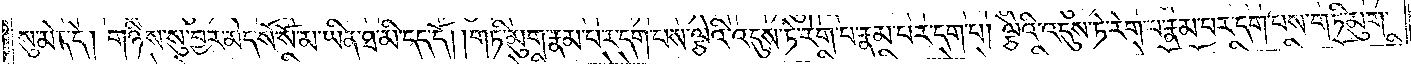སུ་མེད་དེ། གཉིས་སུ་བྱར་མེད་སོ་སོ་མ་ཡིན་ཐ་མི་དད་དོ། །གཏི་མུག་རྣམ་པར་དག་པས་ལྕེའི་འདུས་ཏེ་རེག་པ་རྣམ་པར་དག་པ། ལྕེའི་འདུས་ཏེ་རེག་པ་རྣམ་པར་དག་པས་གཏི་མུག་
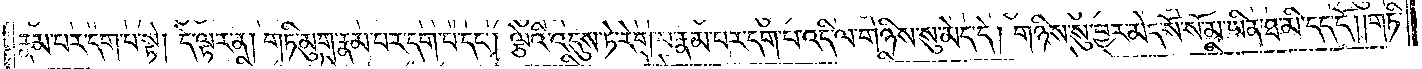རྣམ་པར་དག་པ་སྟེ། དེ་ལྟར་ན། གཏི་མུག་རྣམ་པར་དག་པ་དང༌། ལྕེའི་འདུས་ཏེ་རེག་པ་རྣམ་པར་དག་པ་འདི་ལ་གཉིས་སུ་མེད་དེ། གཉིས་སུ་བྱར་མེད་སོ་སོ་མ་ཡིན་ཐ་མི་དད་དོ། །གཏི་
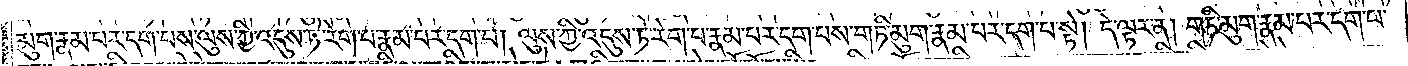མུག་རྣམ་པར་དག་པས་ལུས་ཀྱི་འདུས་ཏེ་རེག་པ་རྣམ་པར་དག་པ། ལུས་ཀྱི་འདུས་ཏེ་རེག་པ་རྣམ་པར་དག་པས་གཏི་མུག་རྣམ་པར་དག་པ་སྟེ། དེ་ལྟར་ན། གཏི་མུག་རྣམ་པར་དག་པ་
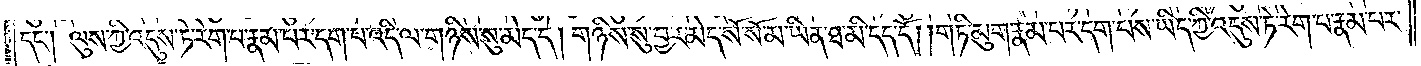དང༌། ལུས་ཀྱི་འདུས་ཏེ་རེག་པ་རྣམ་པར་དག་པ་འདི་ལ་གཉིས་སུ་མེད་དེ། གཉིས་སུ་བྱར་མེད་སོ་སོ་མ་ཡིན་ཐ་མི་དད་དོ། །གཏི་མུག་རྣམ་པར་དག་པས་ཡིད་ཀྱི་འདུས་ཏེ་རེག་པ་རྣམ་པར་
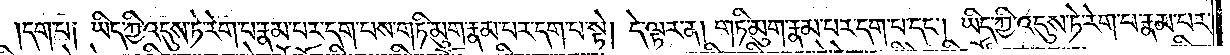དག་པ། ཡིད་ཀྱི་འདུས་ཏེ་རེག་པ་རྣམ་པར་དག་པས་གཏི་མུག་རྣམ་པར་དག་པ་སྟེ། དེ་ལྟར་ན། གཏི་མུག་རྣམ་པར་དག་པ་དང༌། ཡིད་ཀྱི་འདུས་ཏེ་རེག་པ་རྣམ་པར་
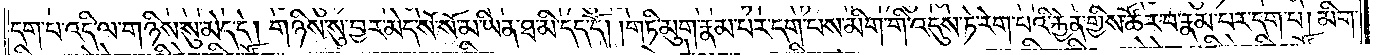དག་པ་འདི་ལ་གཉིས་སུ་མེད་དེ། གཉིས་སུ་བྱར་མེད་སོ་སོ་མ་ཡིན་ཐ་མི་དད་དོ། །གཏི་མུག་རྣམ་པར་དག་པས་མིག་གི་འདུས་ཏེ་རེག་པའི་རྐྱེན་གྱིས་ཚོར་བ་རྣམ་པར་དག་པ། མིག་
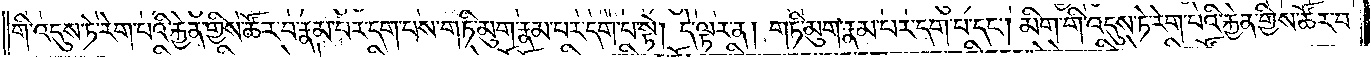གི་འདུས་ཏེ་རེག་པའི་རྐྱེན་གྱིས་ཚོར་བ་རྣམ་པར་དག་པས་གཏི་མུག་རྣམ་པར་དག་པ་སྟེ། དེ་ལྟར་ན། གཏི་མུག་རྣམ་པར་དག་པ་དང༌། མིག་གི་འདུས་ཏེ་རེག་པའི་རྐྱེན་གྱིས་ཚོར་བ་
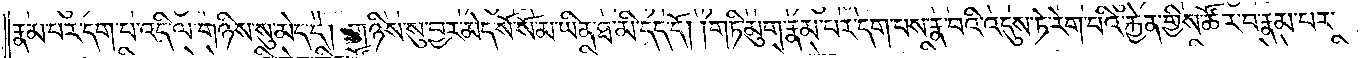རྣམ་པར་དག་པ་འདི་ལ་གཉིས་སུ་མེད་དེ། གཉིས་སུ་བྱར་མེད་སོ་སོ་མ་ཡིན་ཐ་མི་དད་དོ། །གཏི་མུག་རྣམ་པར་དག་པས་རྣ་བའི་འདུས་ཏེ་རེག་པའི་རྐྱེན་གྱིས་ཚོར་བ་རྣམ་པར་
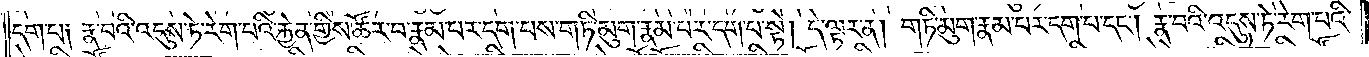དག་པ། རྣ་བའི་འདུས་ཏེ་རེག་པའི་རྐྱེན་གྱིས་ཚོར་བ་རྣམ་པར་དག་པས་གཏི་མུག་རྣམ་པར་དག་པ་སྟེ། དེ་ལྟར་ན། གཏི་མུག་རྣམ་པར་དག་པ་དང༌། རྣ་བའི་འདུས་ཏེ་རེག་པའི་
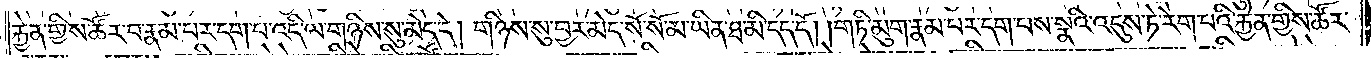རྐྱེན་གྱིས་ཚོར་བ་རྣམ་པར་དག་པ་འདི་ལ་གཉིས་སུ་མེད་དེ། གཉིས་སུ་བྱར་མེད་སོ་སོ་མ་ཡིན་ཐ་མི་དད་དོ། །གཏི་མུག་རྣམ་པར་དག་བས་སྣའི་འདུས་ཏེ་རེག་པའི་རྐྱེན་གྱིས་ཚོར་
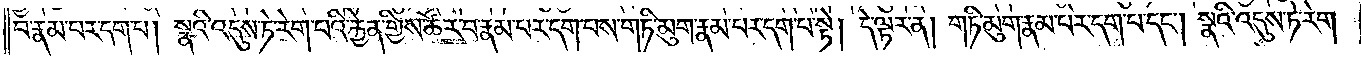བ་རྣམ་པར་དག་པ། སྣའི་འདུས་ཏེ་རེག་པའི་རྐྱེན་གྱིས་ཚོར་བ་རྣམ་པར་དག་པས་གཏི་མུག་རྣམ་པར་དག་པ་སྟེ། དེ་ལྟར་ན། གཏི་མུག་རྣམ་པར་དག་པ་དང༌། སྣའི་འདུས་ཏེ་རེག་
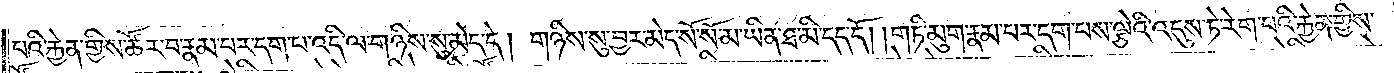པའི་རྐྱེན་གྱིས་ཚོར་བ་རྣམ་པར་དག་པ་འདི་ལ་གཉིས་སུ་མེད་དེ། གཉིས་སུ་བྱར་མེད་སོ་སོ་མ་ཡིན་ཐ་མི་དད་དོ། །གཏི་མུག་རྣམ་པར་དག་པས་ལྕེའི་འདུས་ཏེ་རེག་བའི་རྐྱེན་གྱིས་
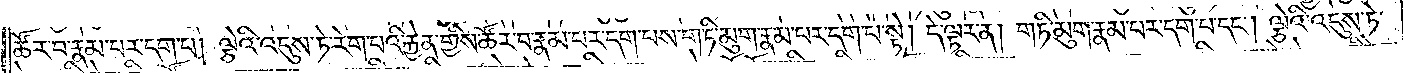ཚོར་བ་རྣམ་པར་དག་པ། ལྕེའི་འདུས་ཏེ་རེག་པའི་རྐྱེན་གྱིས་ཚོར་བ་རྣམ་པར་དག་པས་གཏི་མུག་རྣམ་པར་དག་པ་སྟེ། དེ་ལྟར་ན། གཏི་མུག་རྣམ་པར་དག་པ་དང༌། ལྕེའི་འདུས་ཏེ་
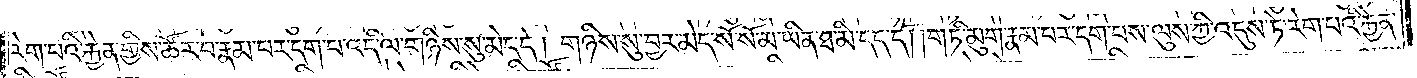རེག་པའི་རྐྱེན་གྱིས་ཚོར་བ་རྣམ་པར་དག་པ་འདི་ལ་གཉིས་སུ་བྱར་མེད་དེ། གཉིས་སུ་བྱར་མེད་སོ་སོ་མ་ཡིན་ཐ་མི་དད་དོ། །གཏི་མུག་རྣམ་པར་དག་པས་ལུས་ཀྱི་འདུས་ཏེ་རེག་པའི་རྐྱེན་
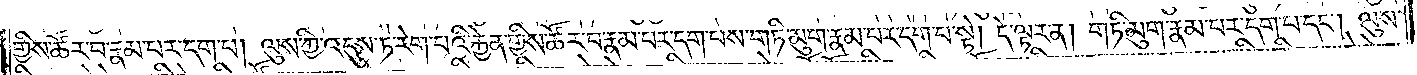གྱིས་ཚོར་བ་རྣམ་པར་དག་པ། ལུས་ཀྱི་འདུས་ཏེ་རེག་པའི་རྐྱེན་གྱིས་ཚོར་བ་རྣམ་པར་དག་པས་གཏི་མུག་རྣམ་པར་དག་པ་སྟེ། དེ་ལྟར་ན། གཏི་མུག་རྣམ་པར་དག་པ་དང༌། ལུས་
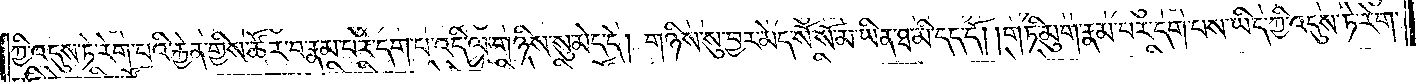ཀྱིས་འདུས་ཏེ་རེག་པའི་རྐྱེན་གྱིས་ཚོར་བ་རྣམ་པར་དག་པ་འདི་ལ་གཉིས་སུ་མེད་དེ། གཉིས་སུ་བྱར་མེད་སོ་སོ་མ་ཡིན་ཐ་མི་དད་དོ། །གཏི་མུག་རྣམ་པར་དག་པས་ཡིད་ཀྱི་འདུས་ཏེ་རེག་
